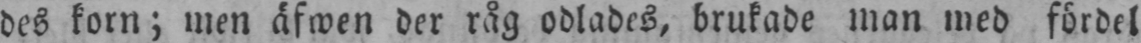des korn; men äfwen der råg odlades, brukade man med fördel
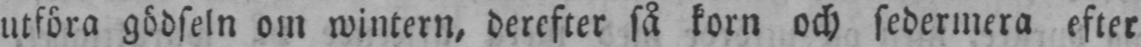utföra gödseln om wintern, derefter så korn och sedermera efter
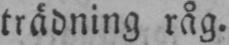trädning råg.
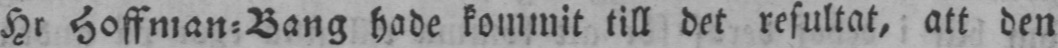Hr Hoffman-Bang hade kommit till det resultat, att den
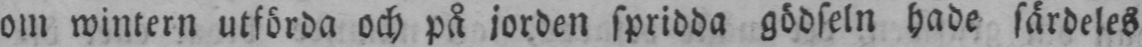om wintern utförda och på jorden spridda gödseln hade särdeles
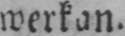werkan.
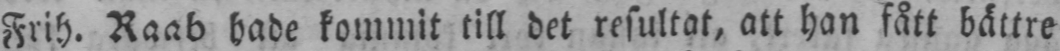Frih. Raab hade kommit till det resultat, att han fått bättre
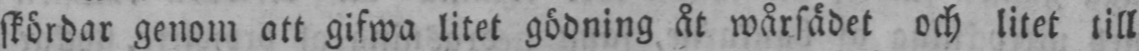skördar genom att gifwa litet gödning åt wårsädet och litet till
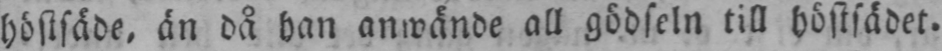höstsäde, än då han anwände all gödseln till höstsädet.
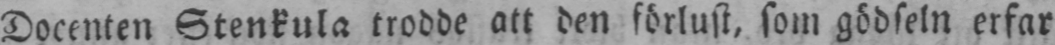Docenten Stenkula trodde att den förlust, som gödseln erfar
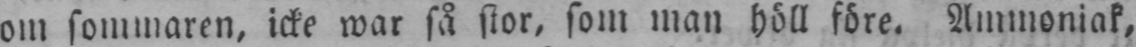om sommaren, icke war så stor, som man höll före. Ammoniak,
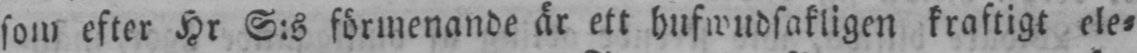som efter Hr S:s förmenande är ett hufwudsakligen kraftigt ele-
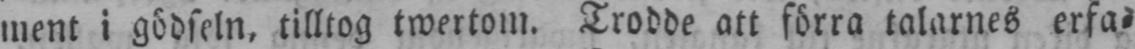ment i gödseln, tilltog twertom. Trodde att förra talarnes erfa-
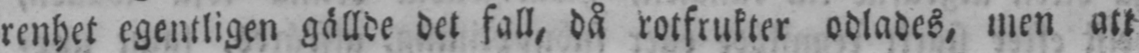renhet egentligen gällde det fall, då rotfrukter odlades, men att
